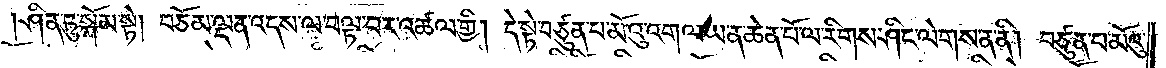ཤིན་ཏུ་སྐོམ་སྟེ། བཅོམ་ལྡན་འདས་ལ་བལྟ་བར་འཚལ་གྱི། དེ་སྟེ་བཙུན་པ་མོའུ་འགལ་ཡ་ན་ཆེན་པོ་ལ་རིགས་ཤིང་ལེགས་ན་ནི། བཙུན་པ་མོའུ་
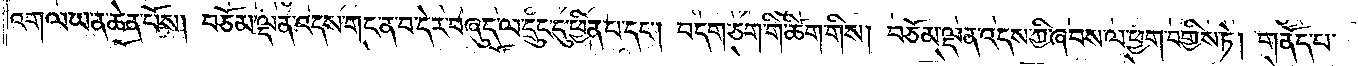འགལ་ཡ་ན་ཆེན་པོས། བཅོམ་ལྡན་འདས་གང་ན་བ་དེར་བཞུད་ལ་དྲུང་དུ་ཕྱིན་པ་དང༌། བདག་ཅག་གི་ཚིག་གིས། བཅོམ་ལྡན་འདས་ཀྱི་ཞབས་ལ་ཕྱག་བགྱིས་ཏེ། གནོད་པ་
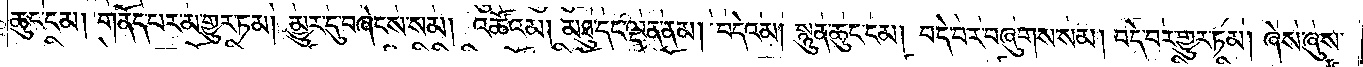ཆུང་ངམ། གནོད་པར་མ་གྱུར་ཏམ། མྱུར་དུ་བཞེངས་སམ། འཚོའམ། མཐུ་དང་ལྡན་ནམ། བདེའམ། སྙུན་ཆུང་ངམ། བདེ་བར་བཞུགས་སམ། བདེ་བར་གྱུར་ཏམ། ཞེས་ཞུས་
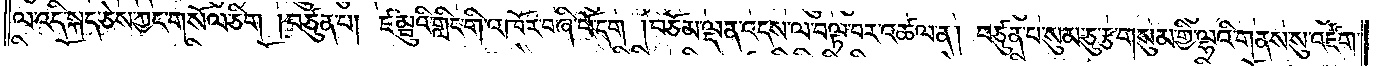ལ་འདི་སྐད་ཅེས་ཀྱང་གསོལ་ཅིག །བཙུན་པ། ཛམྦུའི་གླིང་གི་འཁོར་བཞི་པོ་དག །བཅོམ་ལྡན་འདས་ལ་བལྟ་བར་འཚལ་ན། བཙུན་པ་སུམ་ཅུ་རྩ་གསུམ་གྱི་ལྷའི་གནས་སུ་འཛེག་
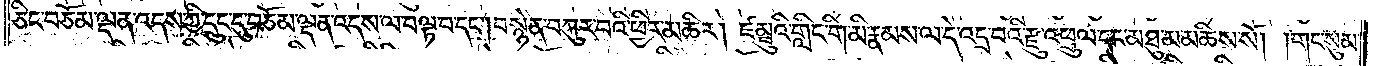ཅིང་བཅོམ་ལྡན་འདས་ཀྱི་དྲུང་དུ་བཅོམ་ལྡན་འདས་ལ་བལྟ་བ་དང༌། བསྙེན་བཀུར་བའི་ཕྱིར་མཆིར། ཛམྦུའི་གླིང་གི་མི་རྣམས་ལ་དེ་འདྲ་བའི་རྫུ་འཕྲུལ་དང་མཐུ་མ་མཆིས་སོ། །གང་སུམ་
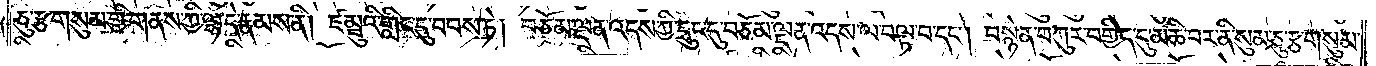ཅུ་རྩ་གསུམ་གྱི་གནས་ཀྱི་ལྷ་དེ་རྣམས་ནི། ཛམྦུའི་གླིང་དུ་བབས་ཏེ། བཅོམ་ལྡན་འདས་ཀྱི་དྲུང་དུ་བཅོམ་ལྡན་འདས་ལ་བལྟ་བ་དང༌། བསྙེན་བཀུར་བགྱིད་དུ་མཆི་བར་ནི་སུམ་ཅུ་རྩ་གསུམ་
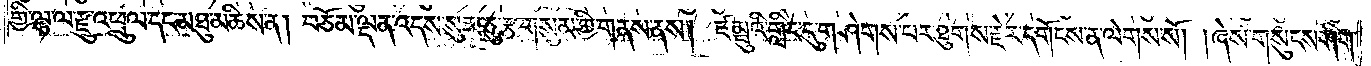གྱི་ལྷ་ལ་རྫུ་འཕྲུལ་དང་མཐུ་མཆིས་ན། བཅོམ་ལྡན་འདས་སུམ་ཅུ་རྩ་གསུམ་གྱི་གནས་ནས། ཛམྦུའི་གླིང་དུ་གཤེགས་པར་ཐུགས་རྗེར་དགོངས་ན་ལེགས་སོ། །ཞེས་གསུངས་ཤིག་
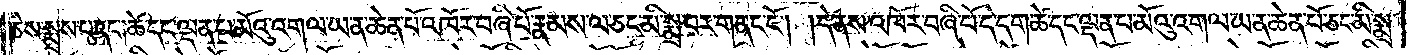ཅེས་སྨྲས་པ་དང༌། ཚེ་དང་ལྡན་པ་མོའུ་འགལ་ཡ་ན་ཆེན་པོ་འཁོར་བཞི་པོ་རྣམས་ལ་ཅང་མི་སྨྲ་བར་གནང་ངོ༌། །དེ་ནས་འཁོར་བཞི་པོ་དེ་དག་ཚེ་དང་ལྡན་པ་མོའུ་འགལ་ཡ་ན་ཆེན་པོ་ཅང་མི་སྨྲ་
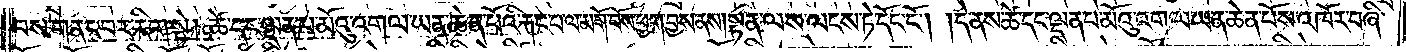བས་གནང་བར་རིག་སྟེ། ཚེ་དང་ལྡན་པ་མོའུ་འགལ་ཡ་ན་ཆེན་པོའི་རྐང་བ་ལ་མགོ་བོས་ཕྱག་བྱས་ནས། སྟན་ལས་ལངས་ཏེ་དོང་ངོ༌། །དེ་ནས་ཚེ་དང་ལྡན་པ་མོའུ་འགལ་ཡ་ན་ཆེན་པོས་འཁོར་བཞི་
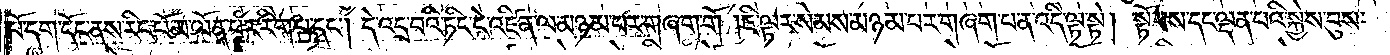པོ་དག་དོང་ནས་རིང་པོ་མ་ལོན་པར་རིག་པ་དང༌། དེ་འདྲ་བའི་ཏིང་ངེ་འཛིན་ལ་མཉམ་པར་གཞག་གོ །ཇི་ལྟར་སེམས་མཉམ་པར་གཞག་པ་ན་འདི་ལྟ་སྟེ། སྟོབས་དང་ལྡན་པའི་སྐྱེས་བུས་
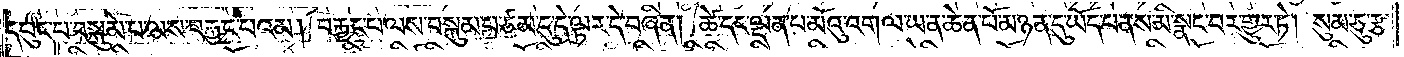དཔུང་པ་བསྐུམ་པ་ལས་བརྐྱང་བའམ། བརྐྱང་པ་ལས་བསྐུམ་པ་ཙམ་དུ་དེ་ལྟར་དེ་བཞིན། ཚེ་དང་ལྡན་པ་མོའུ་འགལ་ཡ་ན་ཆེན་པོ་མཉན་དུ་ཡོད་པ་ནས་མི་སྣང་བར་གྱུར་ཏེ། སུམ་ཅུ་རྩ་
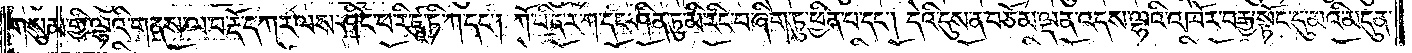གསུམ་གྱི་ལྷའི་གནས་ལ་བ་རྡོ་དཀར་ལས་ཤིང་པ་རི་ཛཱ་ཏི་ཀ་དང༌། ཀོ་པི་ད་ར་ཀ་དང་ཤིན་ཏུ་མི་རིང་བ་ཞིག་ཏུ་ཕྱིན་པ་དང༌། དེའི་དུས་ན་བཅོམ་ལྡན་འདས་ལྷའི་འཁོར་བརྒྱ་སྟོང་དུ་མའི་མདུན་
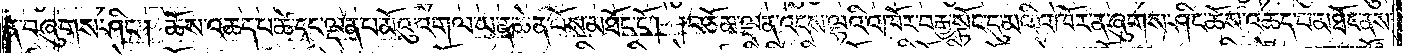ན་བཞུགས་ཤིང༌། ཆོས་འཆད་པ་ཚེ་དང་ལྡན་པ་མོའུ་འགལ་ཡ་ན་ཆེན་པོས་མཐོང་ངོ༌། །བཅོམ་ལྡན་འདས་ལྷའི་འཁོར་བརྒྱ་སྟོང་དུ་མའི་འཁོར་ན་ཞུགས་ཤིང་ཆོས་འཆད་པ་མཐོང་ནས་
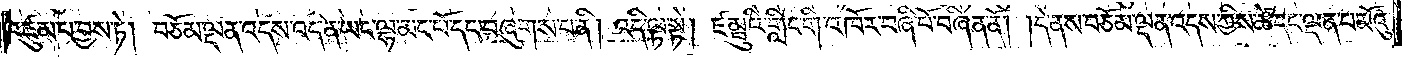འཛུམ་པ་བྱས་ཏེ། བཅོམ་ལྡན་འདས་འདི་ན་ཡང་ལྷ་མང་པོ་དང་བཞུགས་པ་ནི། འདི་ལྟ་སྟེ། ཛམྦུའི་གླིང་གི་འཁོར་བཞི་པོ་བཞིན་ནོ། །དེ་ནས་བཅོམ་ལྡན་འདས་ཀྱིས་ཚེ་དང་ལྡན་པ་མོའུ་
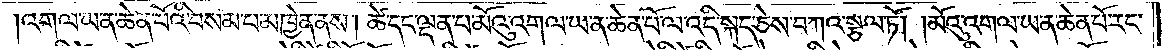འགལ་ཡ་ན་ཆེན་པོའི་བསམ་པ་མཁྱེན་ནས། ཚེ་དང་ལྡན་པ་མོའུ་འགལ་ཡ་ན་ཆེན་པོ་ལ་འདི་སྐད་ཅེས་བཀའ་སྩལ་ཏོ། །མོའུ་འགལ་ཡ་ན་ཆེན་པོ་རང་
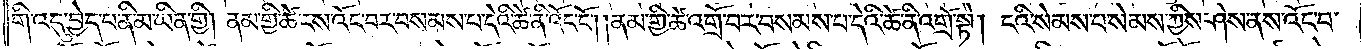གི་འདུ་བྱེད་པ་ནི་མ་ཡིན་གྱི། ནམ་གྱི་ཚེ་ངས་འོང་བར་བསམས་པ་དེའི་ཚེ་ནི་འོང་ངོ༌། །ནམ་གྱི་ཚེ་འགྲོ་བར་བསམས་པ་དེའི་ཚེ་ནི་འགྲོ་སྟེ། ངའི་སེམས་པ་སེམས་ཀྱིས་ཤེས་ནས་འོང་བ་
